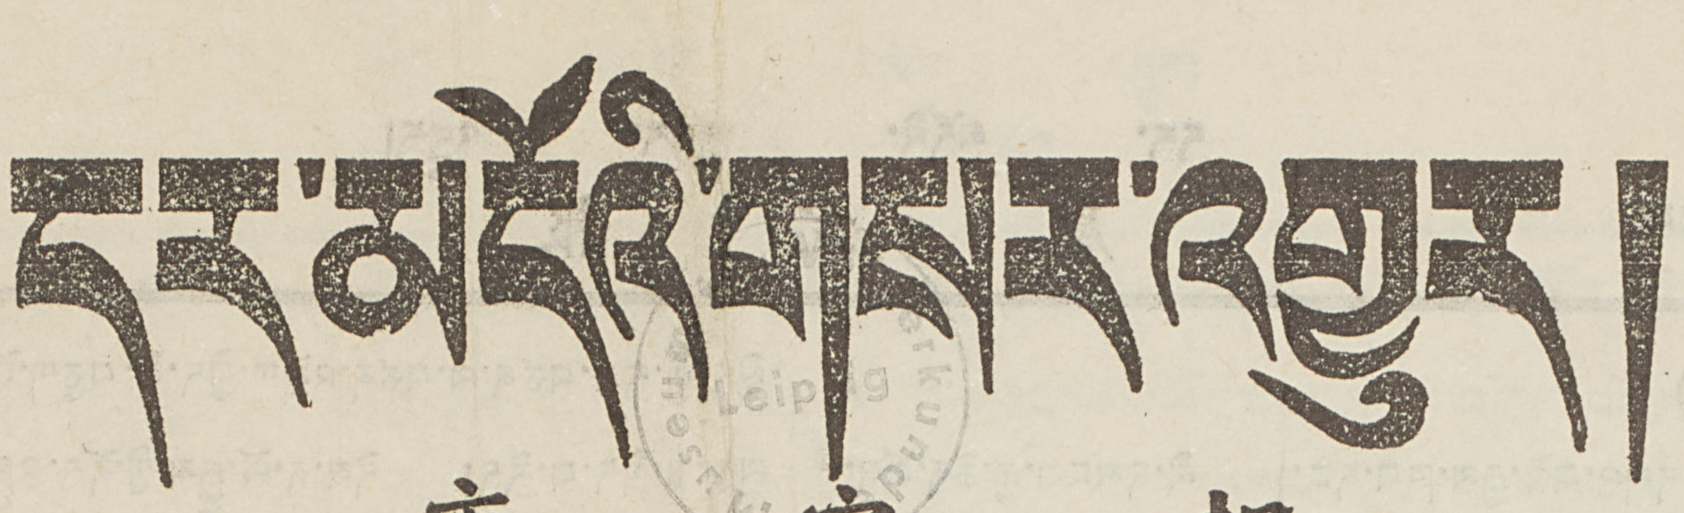དར་མདོའི་གསར་འགྱུར།
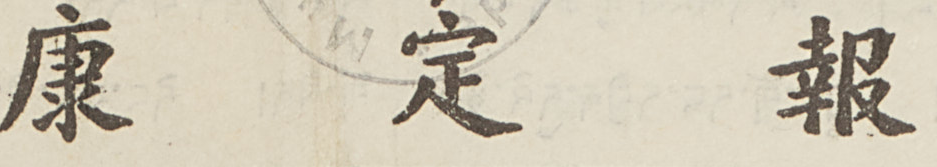康 定 報
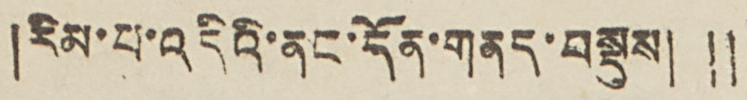།རིམ་པ་འདིའི་ནང་དོན་གནད་བསྡུས། ༎
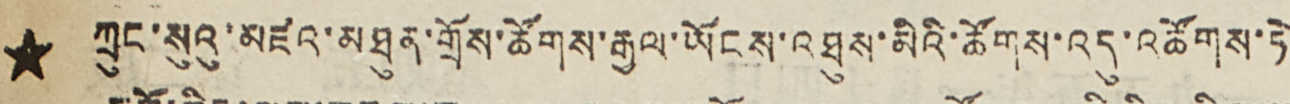★ ཀྲུང་སུའུ་མཛའ་མཐུན་གྲོས་ཚོགས་རྒྱལ་ཡོངས་འཐུས་མིའི་ཚོགས་འདུ་འཚོགས་ཏེ་
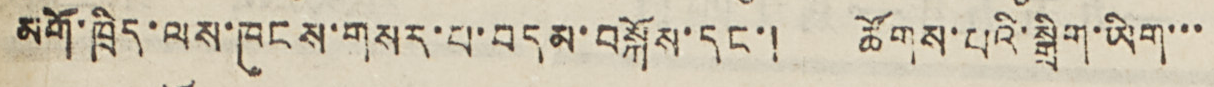མགོ་ཁྲིད་ལས་ཁུངས་གསར་པ་བདམ་བསྐོས་དང་། ཚོགས་པའི་སྒྲིག་ཡིག་་་
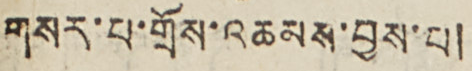གསར་པ་གྲོས་འཆམས་བྱས་པ།
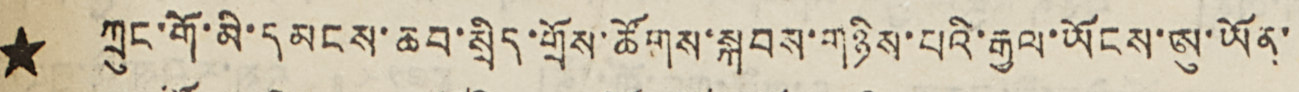★ ཀྲུང་གོ་མི་དམངས་ཆབ་སྲིད་གྲོས་ཚོགས་སྐབས་གཉིས་པའི་རྒྱལ་ཡོངས་ཨུ་ཡོན་
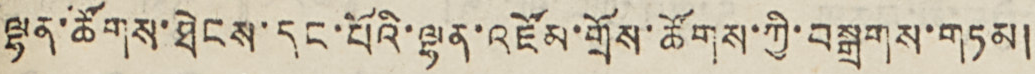ལྷན་ཚོགས་ཐེངས་དང་པོའི་ལྷན་འཛོམ་གྲོས་ཚོགས་ཀྱི་བསྒྲགས་གཏམ།
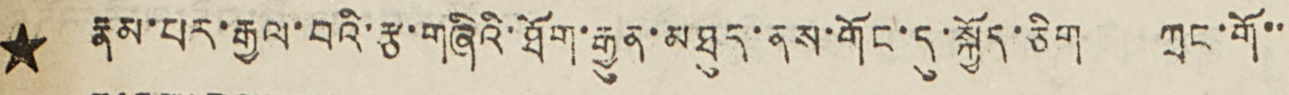★ རྣམ་པར་རྒྱལ་བའི་རྩ་གཞིའི་ཐོག་རྒྱུན་མཐུད་ནས་གོང་དུ་སྐྱོད་ཅིག ཀྲང་གོ་་
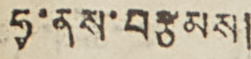ཧྭ་ནས་བརྩམས།
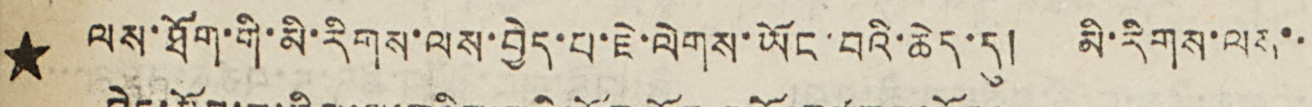★ ལས་ཐོག་གི་མི་རིགས་ལས་བྱེད་པ་ཇེ་ལེགས་ཡོང་བའི་ཆེད་དུ། མི་རིགས་ལས་་
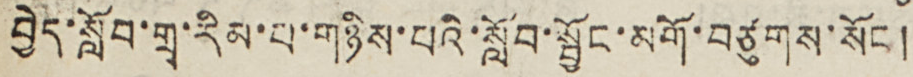བྱེད་སློབ་གྲྭ་རིམ་པ་གཉིས་པའི་སློབ་སྦྱོང་མགོ་བཙུགས་སོང །
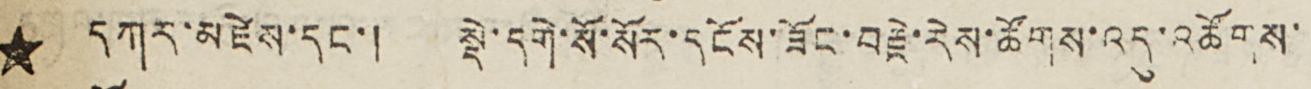★ དཀར་མཛེས་དང་། སྡེ་དགེ་སོ་སོར་དངོས་ཟོང་བརྗེ་རེས་ཚོགས་འདུ་འཚོགས་
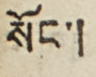སོང་།
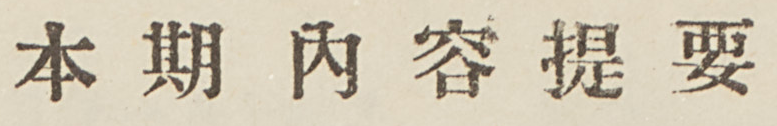本 期 內 容 提 要
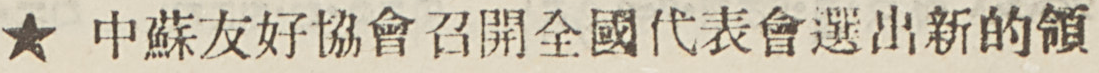★ 中蘇友好協會召開全國代表會選出新的領
